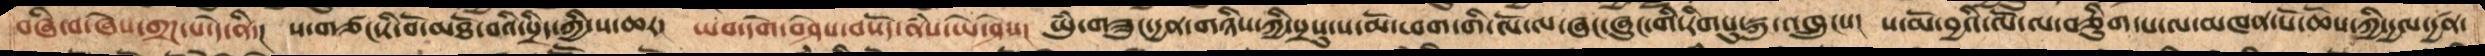བཞི་བ་ཞེས་གྲཌ་པ་དེ་ནི།  ས་གཙང་རི་བོ་མཐོ་བའི་སྲིད་ཀྱི་ས་ཆར།  ཡང་དགེ་བཤེས་བསོད་ནཾས་ཡེ་ཤེས།  ཡུཾ་གཟུང་དྱན་གཉིས་ཀྱི་སྲསུ་ས་མོ་ཕག་གི་ལོ་ལ་ཞང་ཞུང་གི་རིགསུ་སྐུ་འཁྲུངས།  ས་མོ་བྱའི་ལོ་བཅིུག་པ་ལ་མཁན་པོ་ཆོས་ཀྱི་དྱལ་དྱཚན་
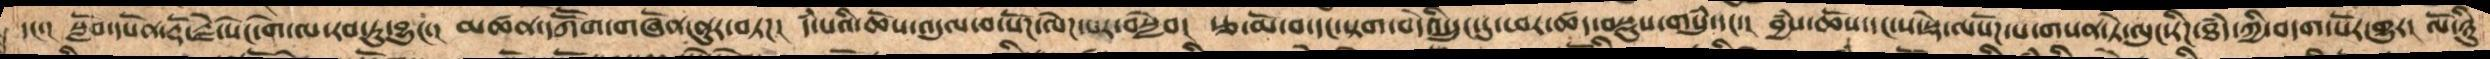དང་།  སློབ་དཔོན་རྡོ་རྗེ་སེང་གེ་ལ་རབ་ཏུ་བྱུང་།  མཚན་དཀཽག་གཞོན་ནུར་བཏཌ།  དཾ་པའི་ཆོས་འདུལ་བ་ལ་སོཌ་པ་ལེཌ་པར་བསླེབ།  རྩ་མོ་བ་དང་སྟག་བདེའི་དྲུང་དུ་ཕར་ཚད་བསྡུས་གསུཾ་དང་།  བྱཾས་ཆོས་དང་ས་སྡེ་ལསོཌ་པ་གསན་ཏེ་ལུང་རིཌ་ཐཾད་ཀྱི་བདག་པོར་གྱུར།  ལོ་ཉིུ
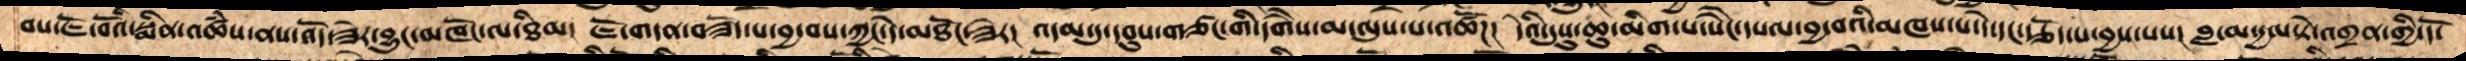བས་ཇོ་བོའི་སྨིན་འཚཾས་ནས་འོད་ཟེར་བྱུང་མཁོང་ལ་ཐིམ།  ཇོ་གདན་བཟོད་པ་བྱ་བས་ཀྱང་དེ་མཐོང་ཟེར།  འདམ་དུ་དབུས་གཙང་གི་དགཻས་མ་ལུས་པ་འཚོཌ།  དེའི་དུསུ་ཆུ་མིག་པ་སཻང་དཔལ་བྱ་བའི་མཁས་པ་དེ་དང་རྩོད་པ་བྱས་པས།  བླ་མ་དྱལ་ཏེ་འགྲན་གྱི་དོ་
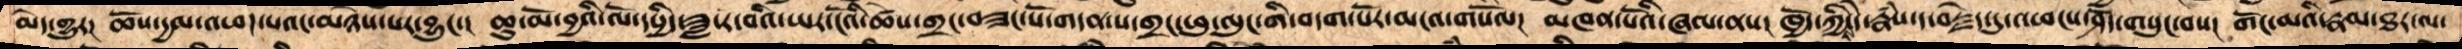མེད་གྱུར།  ཆོས་དྱལ་འཕཌ་པའང་མཉེས་པར་བྱུང་།  ཆུ་མོ་བྱའི་ལོ་དཔྱིད་ཟླ་ར་བའི་ཡར་ངོའི་ཚེས་གྲང་བཟང་པོ་ལ་གདན་ས་གྲང་ཕུ་ལུང་གི་བདག་པོར་མངའ་གསོལ།  མཁན་པོའི་ཞལ་ནས།  ཁྱོད་ཀྱིས་དེ་རྣཾས་ད་བརྗེད་དུ་འཕངས་ཤོད་གསུང་བས།  གོང་མའི་རྣམ་ཐར་ལ་
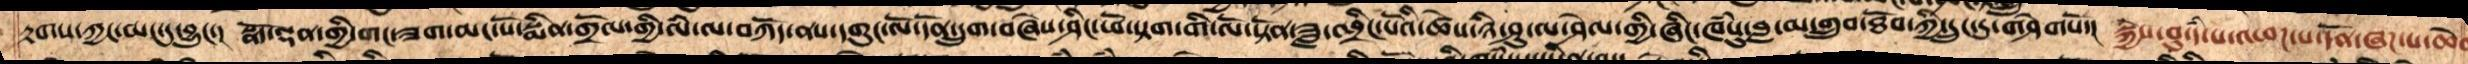རྟགས་ཀྱང་མང་དུ་བྱུང་།  སྣོད་ལྡན་གྱི་གང་ཟག་མང་པོ་སྨིན་གྲོལ་གྱི་ལཾ་ལ་བཀོད་ནས་དགུང་ལོ་དོན་དྲུག་བཞེས་ཤིང་ཕོ་སྟག་གི་ལོ་སྟོན་ཟླ་འབྲིང་པོའི་ཚེས་ཉི་ཤུ་ལ་ཤེལ་གྱི་ཞིང་ཁཾསུ་བླ་མ་གྲུབ་ཐོབ་ཀྱི་དྲུང་དུ་གཤེགསོ།  སྐྱེས་བུ་དཾ་པ་འཕཌ་པ་དོན་ཞཌ་པ་ཆེན
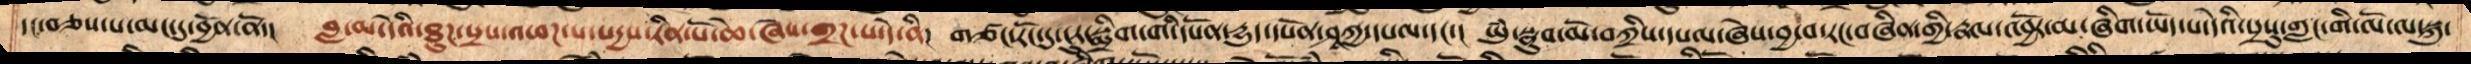དང་བཅས་པ་མང་དུ་བྱོན་ནོ་།  བླ་མ་དེའི་ཐུཌ་སྲས་འཕཌ་པ་སདྱས་རིན་པོ་ཆེ་ཞེས་གྲཌ་པ་དེ་ནི།  གཙང་རོང་དུ་ངུར་སྨིག་གི་དཔོན་དྱུད་དཔོན་ཤཱཀྱ་དཔལ་དང་།  ཡུཾ་སྣུབ་མོ་བཀྲིས་དཔལ་ཞེས་བྱ་བ་རང་བཞིན་གྱི་རྣལ་འབྱོར་མ་ཞིག་ཡོད་པ་དེའི་སྲསུ་གླང་གི་ལོ་ལ་སྐུ་
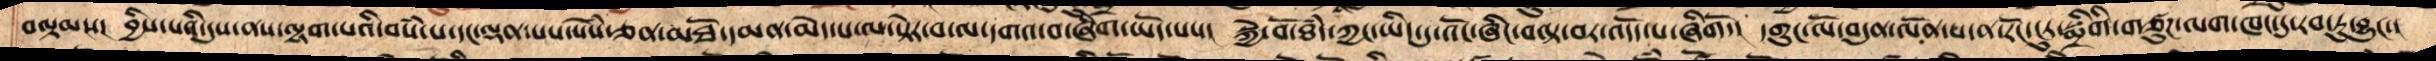བལྟམས།  བྱིས་པའི་དུས་ནས་ལྷག་པའི་བསཾ་པ་དང་ལྡན་པས་སེཾས་ཅན་མཐོ་དམན་མེད་པ་ལ་སྟེར་བ་ལ་དགའ་བ་ཞིག་ཡོད་པས།  སྐྱེ་བོ་ཐཾད་ཀྱང་ཡིད་དུ་འོང་ཞིང་བལྟ་བར་འདོད་པ་ཞིགོ་།  དགུང་ལོ་བདུན་ལོན་པ་ན་རོང་ངུར་སྨྲིགི་གཙུཌ་ལག་ཁང་དུ་རབ་དུ་བྱུང་།
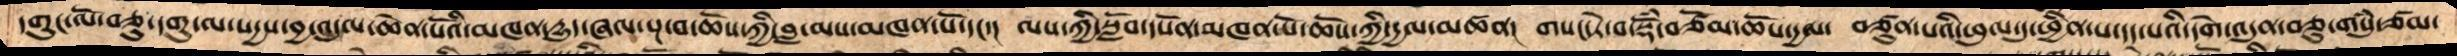དགུང་ལོ་བཅུ་དགུ་ལ་སདྱས་བྱ་འདུལ་ཆེན་པོའི་མཁན་དྱུད་ཞལ་སྔ་བ་ཆོས་ཀྱི་བླ་མས་མཁན་པོ་དང་།  ལས་ཀྱི་སློབ་དཔོན་མཁན་པོ་ཆོས་ཀྱི་དྱལ་མཚན།  གསང་ཏེ་བ་སྡོཾ་བཙོམ་ཆོས་དྱལ་  བཙུན་པའི་ཕུལ་དུ་ཕྱིན་པ་དད་པའི་དགེ་འདུན་བཅུ་གསུཾ་ཙམ་
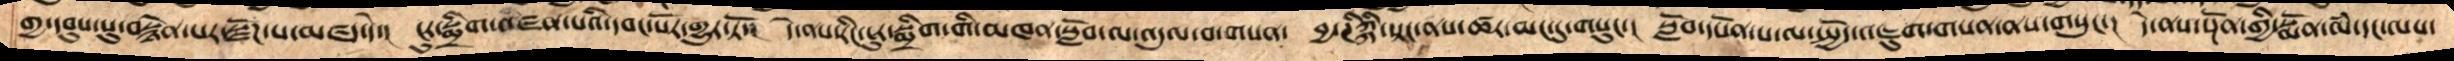གྱ་དབུས་སུ་བསྙེན་པར་སྫོཌ་པ་མཛད་དེ་།  ངུར་སྨྲིག་འཛིན་པའི་དབང་པོར་གྱུར་ཏོ་།  དེ་ནས་རིང་ངུར་སྨྲིག་གི་མཁན་སློབ་ལ་འདུལ་བ་གསན་  བྱ་ཌིཀྐི་སྟང་ནས་ཚར་མང་དུ་གསུང་།  སློབ་དཔོན་པ་ལ་སྤྱོད་འཇུག་གསན་ནས་གསུང་།  དེ་ནས་སྔོན་གྱི་སྨོན་ལཾ་དང་ལས་
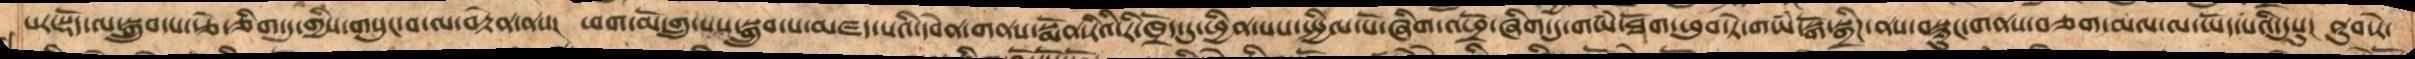པར་སྡོད་ལ་སྒྲུབ་པ་རྩེ་ཅིག་དུ་གྱིས་གསུང་བ་ལ་བརྟེན་ནས།  ཕག་མོ་གྲུ་པས་སྒྲུབ་པ་མཛད་པའི་དབེན་གནས་སྨོན་རིའི་རི་ཁྲོད་དུ་ཕྱིན་ནས་སྤྱིལ་པོ་ཞིག་འཕྲོ་ཞིག་དུ་གཡཾ་ཐོག་ཕུབ་ཏེ་གཡཾ་སྒོ་སྒྲིཌ་ནས་བསྙུང་གནས་བཅག་མལ་ལ་ཡོད་པའི་དུསུ།  ནུབ་རེ་
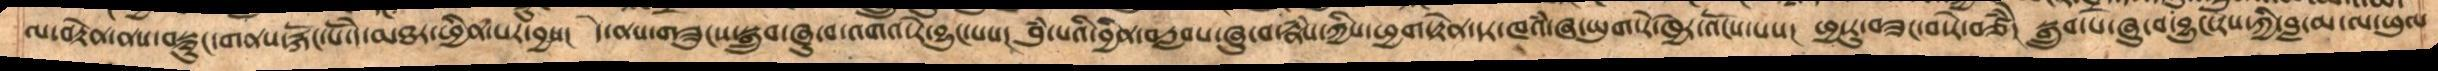ལ་བརྟེན་ནས་བསྙུང་གནས་རྐོང་པོ་དེ་མཐར་ཕྱིན་པར་བྱས།  དེ་ནས་གཟུངས་སྒྲུབ་ཞུ་བ་འགའ་རེ་བྱུང་བས།  བུཾ་པའི་བྱིན་རླབས་ཞུ་བ་རྣཾས་ཀྱིས་ཕྱག་རྟེན་དར་ཁའཾ་ཞྭ་ཡུག་རེ་ཁྱེར་འོངས་པས།  ཕྱ་རུ་བཟང་བ་རེ་བཙེཾ།  སྒྲུབ་པ་ཞུ་བ་བྱུང་རས་ཀྱི་བླ་མ་ལ་ཕུལ།
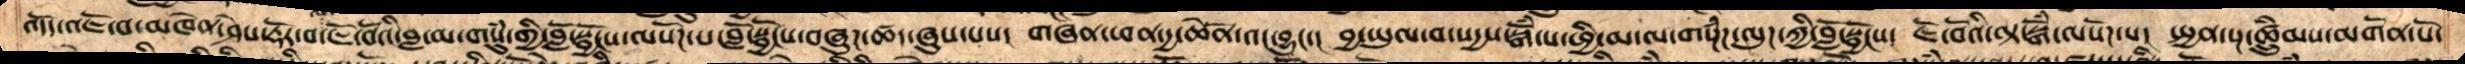འོདད་འཇོ་བ་མཁེན་ཤེས་རྡོར་བ་ཇོ་བོའི་བླ་མ་གསུཾ་གྱི་བློ་སྦྱོངས་ལསོཌ་པ་བློ་སྦྱོངས་བཞུཌ་ཚད་ཞུས་པས།  གཞན་ཕན་དྱ་ཆེནོ་་འང་བྱུང་།  བྱ་ཡུལ་བ་སདྱས་སྒོཾ་པ་ཕྱི་མ་ལ་གསྔཾཌ་ལུཌ་ཀྱི་བློ་སྦྱོངས་།  ཇོ་བོའི་ལྟ་སྒོཾ་ལསོཌ་པ།  སྤྱན་སྔ་ཚྲིུམས་མགོན་པོ་
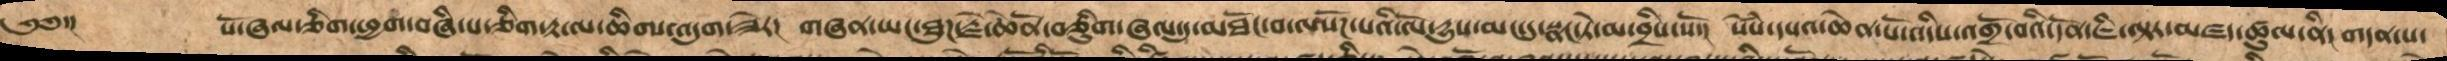༄༅་།      པོ་ཞལ་ཅིག་ཕྱག་བཞི་པ་ཅིག་རྟ་ལ་ཆིགས་འདུག་ཟེར།  གཞན་ཡང་ཐུཌ་རྗེ་ཆེནོ་བཅིུག་ཞལ་དུ་མཐོང་བ་ལསོཌ་པའི་ལོ་དྱུས་མང་དུ་སྣང་ཏེ་མ་བྲིས་སོ་།   སེཾས་དཔའ་ཆེན་པོ་འདིས་འགྲོ་བའི་དོན་ཇི་ལྟར་མཛད་ཚུལ་ནི།  གདན་ས་
